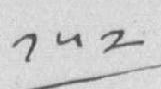༡༥༢
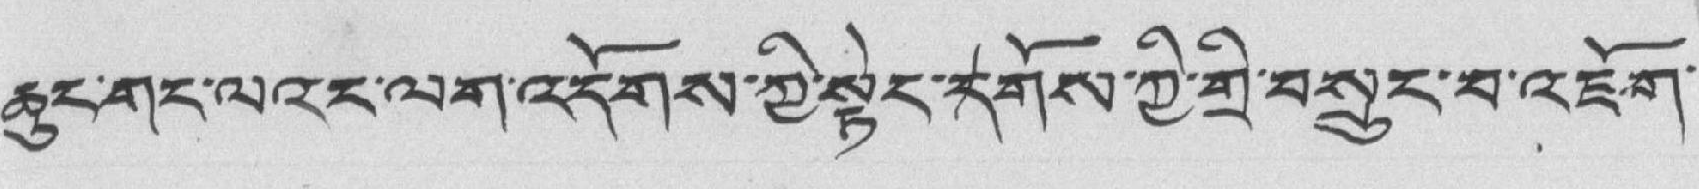ཆུང་གང་ལའང་ལག་འདོགས་ཀྱི་སྟེང་དགོས་ཀྱི་གྲི་བསྲུང་བ་འཇོག་
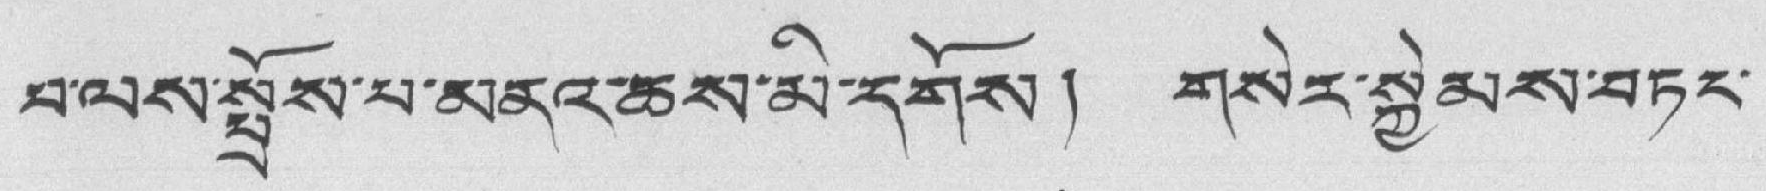བ་ལས་སྤྲོས་པ་མནའ་ཆས་མི་དགོས། གསེར་སྐྱེམས་བཏང་
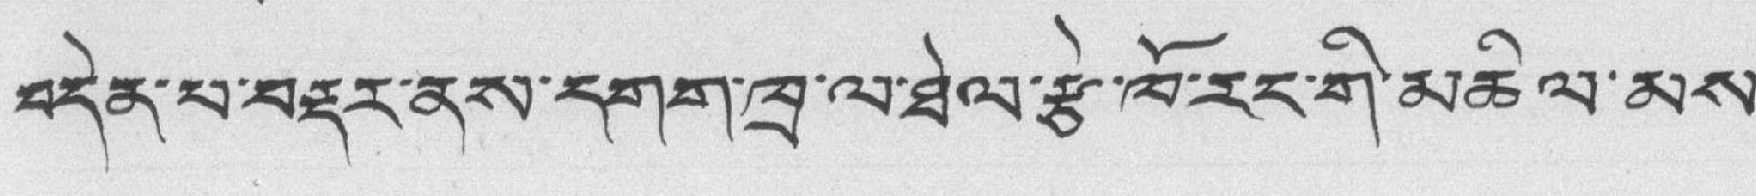བདེན་པ་བརྡར་ནས་དགག་ཁྲ་ལ་ཐེལ་རྩེ་ཁོ་རང་གི་མཆིལ་མས་
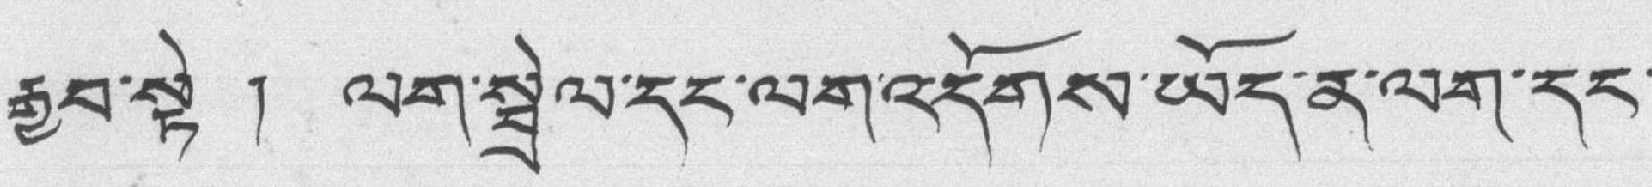རྒྱབ་སྟེ ། ལག་སྦྲེལ་དང་ལག་འདོགས་ཡོད་ན་ལག་དང་
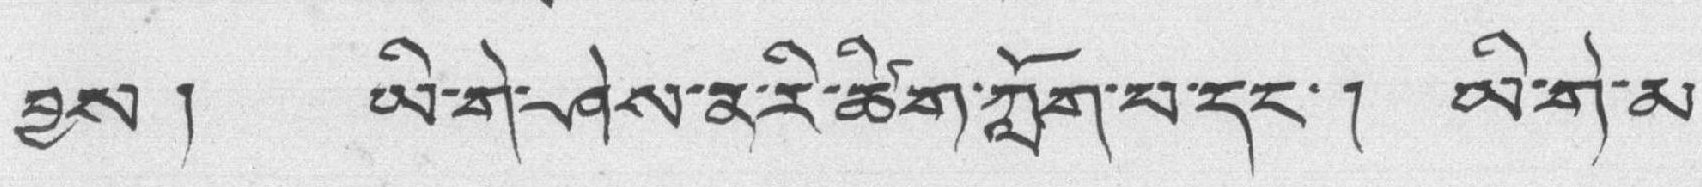བྱས ། ཡི་གེ་ཤེས་ན་རི་ཚིག་ཀློག་པ་དང་། ཡི་གེ་མ་
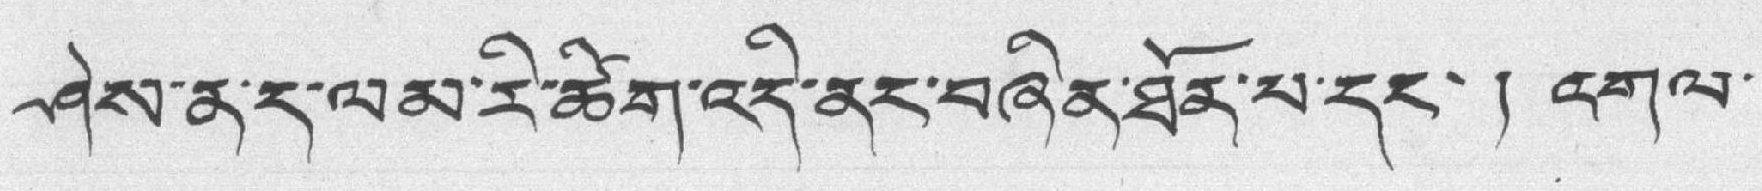ཤེས་ན་ད་ལམ་རི་ཚིག་འདི་ནང་བཞིན་ཐོན་པ་དང་། འགལ་
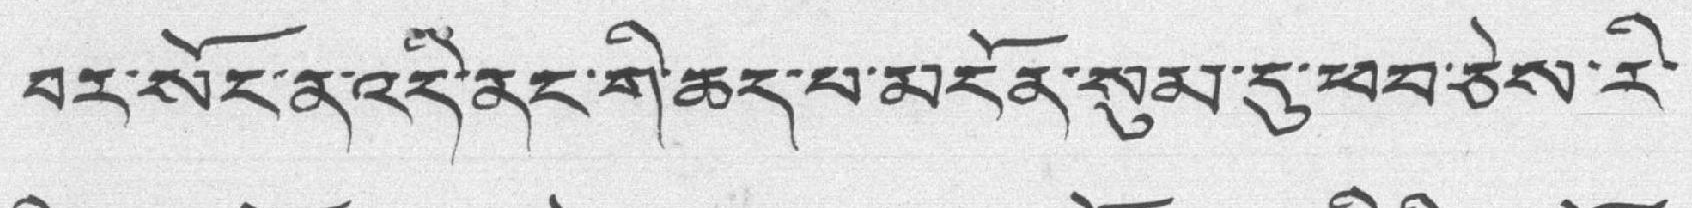བར་སོང་ན་འདི་ནང་གི་ཆད་པ་མངོན་སུམ་དུ་ཕབ་ཅེས་རི་
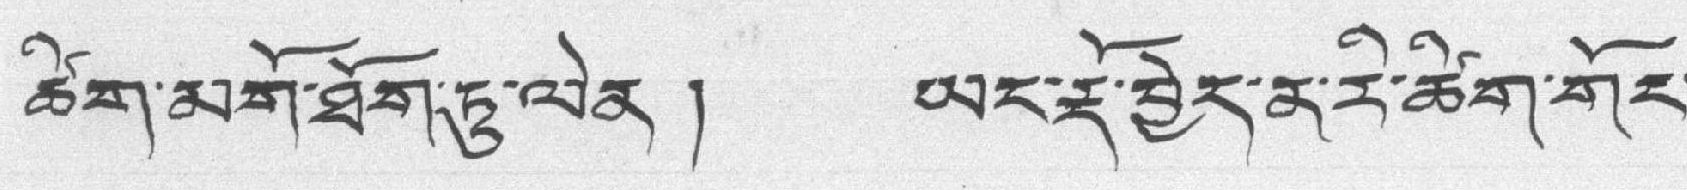ཚིག་མགོ་ཐོག་ཏུ་ལེན ། ཡང་རྡོ་བྱེད་ན་རི་ཚིག་གོང་
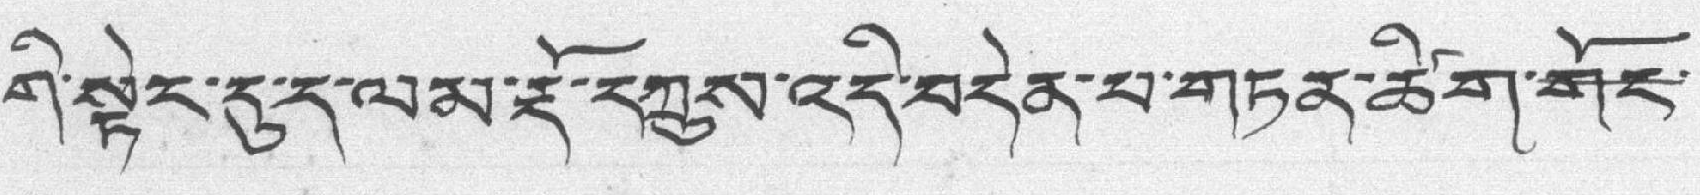གི་སྟེང་དུ་ད་ལམ་རྡོ་དཀྲུས་འདི་བདེན་པ་གཏན་ཚིག་གོང་
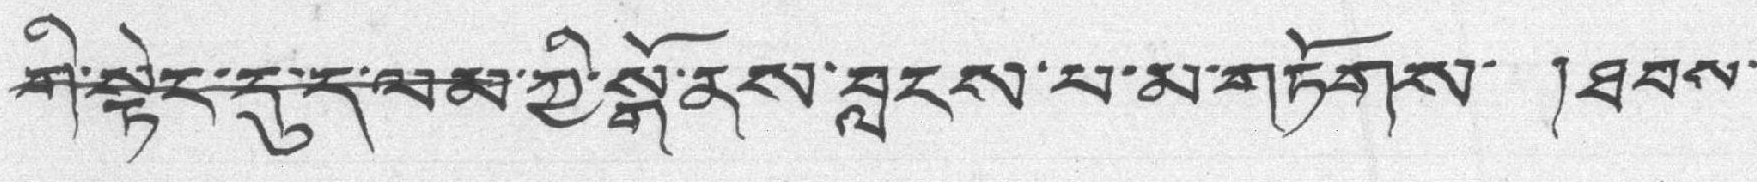གི་སྟེང་དུ་ད་ལམ་ཀྱི་སྒོ་ནས་བླངས་པ་མ་གཏོགས་ །ཐབས་
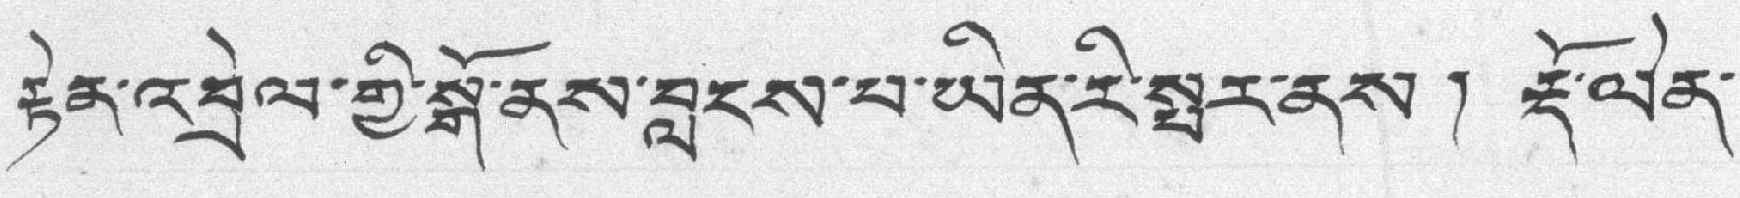རྟེན་འབྲེལ་གྱི་སྒོ་ནས་བླངས་པ་ཡིན་རི་སྤར་ནས། རྡོ་ལེན་
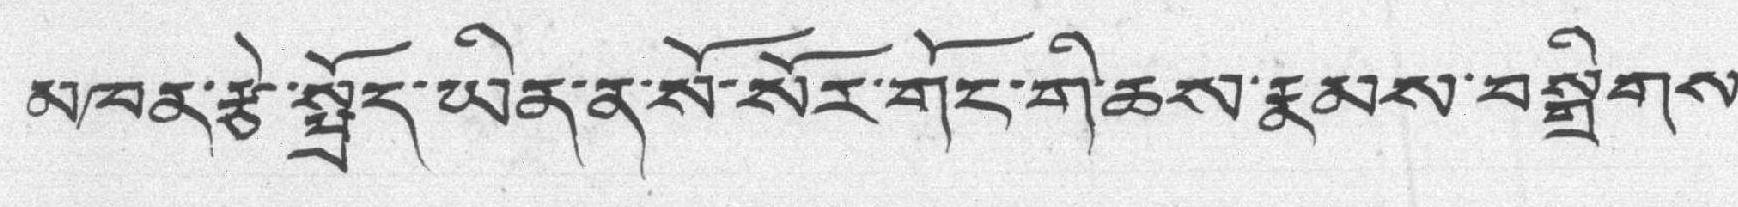མཁན་རྩེ་སྤྲོད་ཡིན་ན་སོ་སོར་གོང་གི་ཆས་རྣམས་བསྒྲིགས་
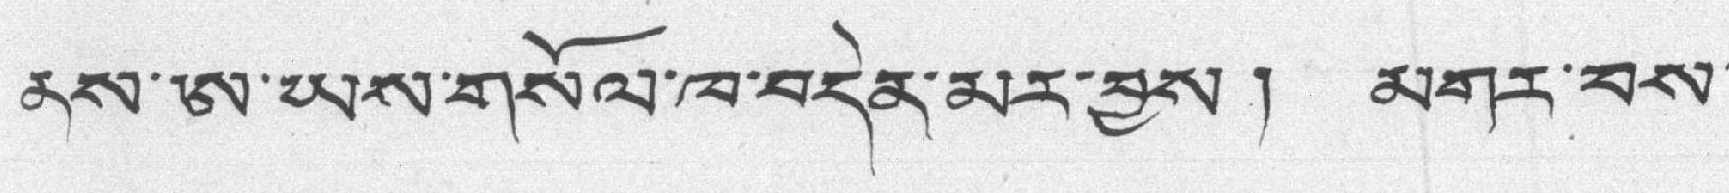ནས་ཨ་ཡས་གསོལ་ཁ་བདེན་མར་བྱས། མགར་བས་
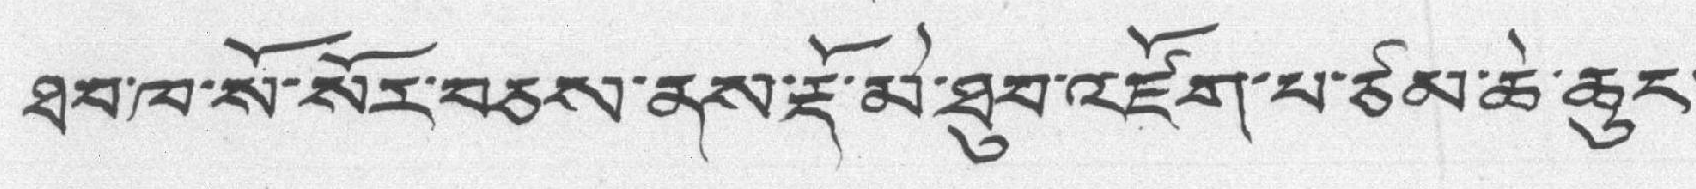ཐབ་ཁ་སོ་སོར་བཅས་ནས་རྡོ་མེ་ཐུབ་འཛོག་པ་ཙམ་ཆེ་ཆུང་
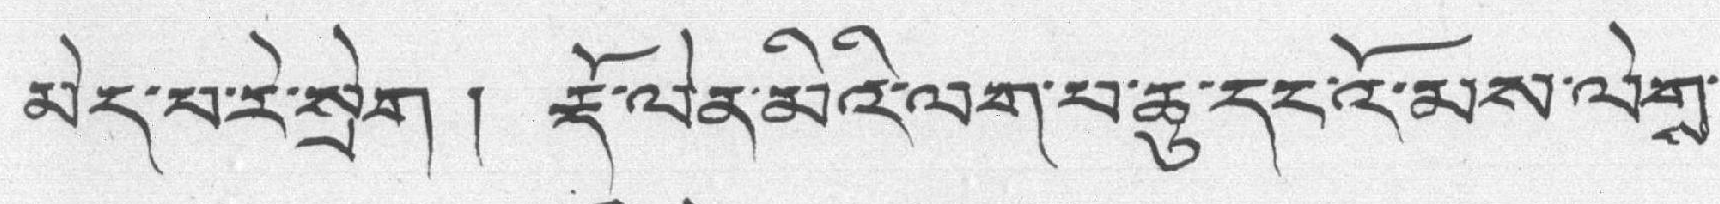མེད་པ་རེ་སྲེག ། རྡོ་ལེན་མིའི་ལག་པ་ཆུ་དང་འོ་མས་ལེགས་
